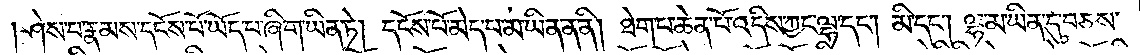ཤེས་པ་རྣམས་དངོས་པོ་ཡོད་པ་ཞིག་ཡིན་ཏེ། དངོས་པོ་མེད་པ་མ་ཡིན་ན་ནི། ཐེག་པ་ཆེན་པོ་འདིས་ཀྱང་ལྷ་དང༌། མི་དང༌། ལྷ་མ་ཡིན་དུ་བཅས་
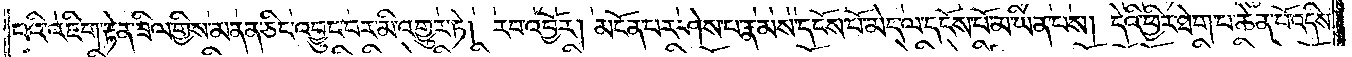པའི་འཇིག་རྟེན་ཟིལ་གྱིས་མནན་ཅིང་འབྱུང་བར་མི་འགྱུར་ཏེ། རབ་འབྱོར། མངོན་པར་ཤེས་པ་རྣམས་དངོས་པོ་མེད་ལ་དངོས་པོ་མ་ཡིན་པས། དེའི་ཕྱིར་ཐེག་པ་ཆེན་པོ་འདིས་
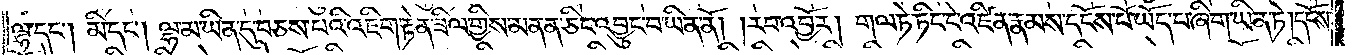ལྷ་དང༌། མི་དང༌། ལྷ་མ་ཡིན་དུ་བཅས་པའི་འཇིག་རྟེན་ཟིལ་གྱིས་མནན་ཅིང་འབྱུང་བ་ཡིན་ནོ། །རབ་འབྱོར། གལ་ཏེ་ཏིང་ངེ་འཛིན་རྣམས་དངོས་པོ་ཡོད་པ་ཞིག་ཡིན་ཏེ། དངོས་
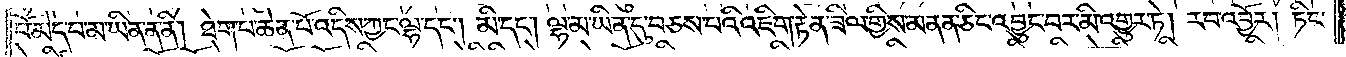པོ་མེད་པ་མ་ཡིན་ན་ནི། ཐེག་པ་ཆེན་པོ་འདིས་ཀྱང་ལྷ་དང༌། མི་དང༌། ལྷ་མ་ཡིན་དུ་བཅས་པའི་འཇིག་རྟེན་ཟིལ་གྱིས་མནན་ཅིང་འབྱུང་བར་མི་འགྱུར་ཏེ། རབ་འབྱོར། ཏིང་
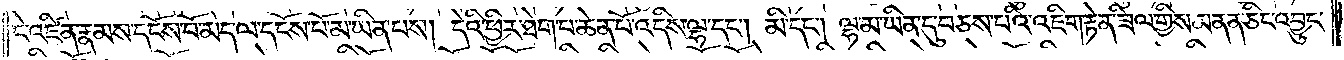ངེ་འཛིན་རྣམས་དངོས་པོ་མེད་ལ་དངོས་པོ་མ་ཡིན་པས། དེའི་ཕྱིར་ཐེག་པ་ཆེན་པོ་འདིས་ལྷ་དང༌། མི་དང༌། ལྷ་མ་ཡིན་དུ་བཅས་པའི་འཇིག་རྟེན་ཟིལ་གྱིས་མནན་ཅིང་འབྱུང་
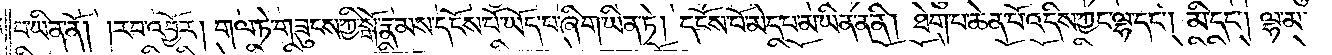བ་ཡིན་ནོ། །རབ་འབྱོར། གལ་ཏེ་གཟུངས་ཀྱི་སྒོ་རྣམས་དངོས་པོ་ཡོད་པ་ཞིག་ཡིན་ཏེ། དངོས་པོ་མེད་པ་མ་ཡིན་ན་ནི། ཐེག་པ་ཆེན་པོ་འདིས་ཀྱང་ལྷ་དང༌། མི་དང༌། ལྷ་མ་
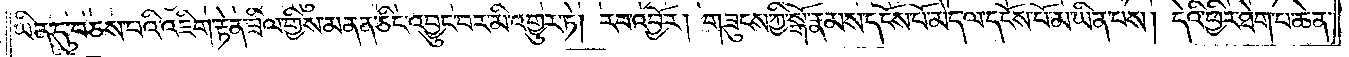ཡིན་དུ་བཅས་པའི་འཇིག་རྟེན་ཟིལ་གྱིས་མནན་ཅིང་འབྱུང་བར་མི་འགྱུར་ཏེ། རབ་འབྱོར། གཟུངས་ཀྱི་སྒོ་རྣམས་དངོས་པོ་མེད་ལ་དངོས་པོ་མ་ཡིན་པས། དེའི་ཕྱིར་ཐེག་པ་ཆེན་
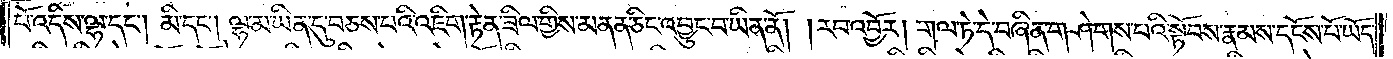པོ་འདིས་ལྷ་དང༌། མི་དང༌། ལྷ་མ་ཡིན་དུ་བཅས་པའི་འཇིག་རྟེན་ཟིལ་གྱིས་མནན་ཅིང་འབྱུང་བ་ཡིན་ནོ། །རབ་འབྱོར། གལ་ཏེ་དེ་བཞིན་གཤེགས་པའི་སྟོབས་རྣམས་དངོས་པོ་ཡོད་
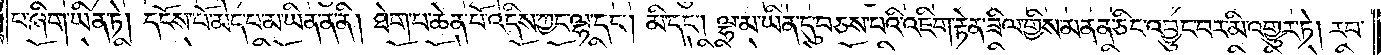པ་ཞིག་ཡིན་ཏེ། དངོས་པོ་མེད་པ་མ་ཡིན་ན་ནི། ཐེག་པ་ཆེན་པོ་འདིས་ཀྱང་ལྷ་དང༌། མི་དང༌། ལྷ་མ་ཡིན་དུ་བཅས་པའི་འཇིག་རྟེན་ཟིལ་གྱིས་མནན་ཅིང་འབྱུང་བར་མི་འགྱུར་ཏེ། རབ་
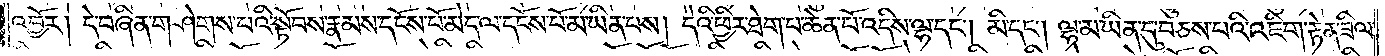འབྱོར། དེ་བཞིན་གཤེགས་པའི་སྟོབས་རྣམས་དངོས་པོ་མེད་ལ་དངོས་པོ་མ་ཡིན་པས། དེའི་ཕྱིར་ཐེག་པ་ཆེན་པོ་འདིས་ལྷ་དང༌། མི་དང༌། ལྷ་མ་ཡིན་དུ་བཅས་པའི་འཇིག་རྟེན་ཟིལ་
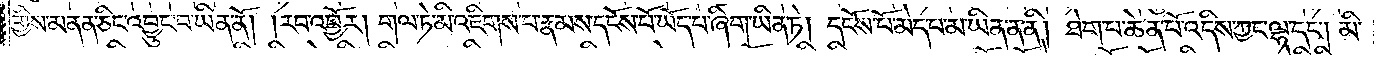གྱིས་མནན་ཅིང་འབྱུང་བ་ཡིན་ནོ། །རབ་འབྱོར། གལ་ཏེ་མི་འཇིགས་པ་རྣམས་དངོས་པོ་ཡོད་པ་ཞིག་ཡིན་ཏེ། དངོས་པོ་མེད་པ་མ་ཡིན་ན་ནི། ཐེག་པ་ཆེན་པོ་འདིས་ཀྱང་ལྷ་དང༌། མི་
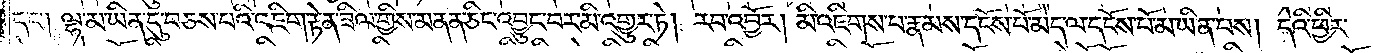དང༌། ལྷ་མ་ཡིན་དུ་བཅས་པའི་འཇིག་རྟེན་ཟིལ་གྱིས་མནན་ཅིང་འབྱུང་བར་མི་འགྱུར་ཏེ། རབ་འབྱོར། མི་འཇིགས་པ་རྣམས་དངོས་པོ་མེད་ལ་དངོས་པོ་མ་ཡིན་པས། དེའི་ཕྱིར་
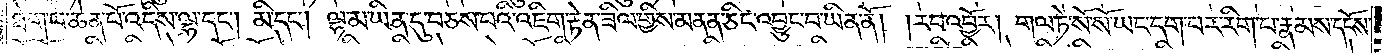ཐེག་པ་ཆེན་པོ་འདིས་ལྷ་དང༌། མི་དང༌། ལྷ་མ་ཡིན་དུ་བཅས་པའི་འཇིག་རྟེན་ཟིལ་གྱིས་མནན་ཅིང་འབྱུང་བ་ཡིན་ནོ། །རབ་འབྱོར། གལ་ཏེ་སོ་སོ་ཡང་དག་པར་རིག་པ་རྣམས་དངོས་
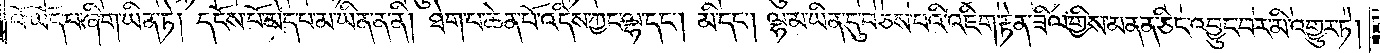པོ་ཡོད་པ་ཞིག་ཡིན་ཏེ། དངོས་པོ་མེད་པ་མ་ཡིན་ན་ནི། ཐེག་པ་ཆེན་པོ་འདིས་ཀྱང་ལྷ་དང༌། མི་དང༌། ལྷ་མ་ཡིན་དུ་བཅས་པའི་འཇིག་རྟེན་ཟིལ་གྱིས་མནན་ཅིང་འབྱུང་བར་མི་འགྱུར་ཏེ།
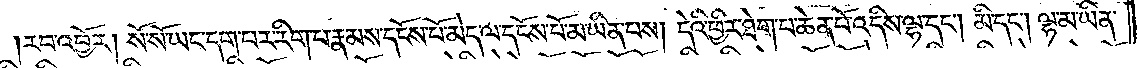རབ་འབྱོར། སོ་སོ་ཡང་དག་པར་རིག་པ་རྣམས་དངོས་པོ་མེད་ལ་དངོས་པོ་མ་ཡིན་པས། དེའི་ཕྱིར་ཐེག་པ་ཆེན་པོ་འདིས་ལྷ་དང༌། མི་དང༌། ལྷ་མ་ཡིན་
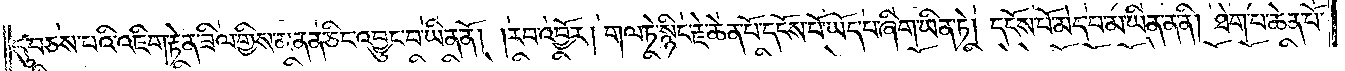དུ་བཅས་པའི་འཇིག་རྟེན་ཟིལ་གྱིས་མནན་ཅིང་འབྱུང་བ་ཡིན་ནོ། །རབ་འབྱོར། གལ་ཏེ་སྙིང་རྗེ་ཆེན་པོ་དངོས་པོ་ཡོད་པ་ཞིག་ཡིན་ཏེ། དངོས་པོ་མེད་པ་མ་ཡིན་ན་ནི། ཐེག་པ་ཆེན་པོ་
